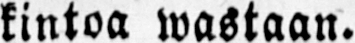kintoa wastaan.
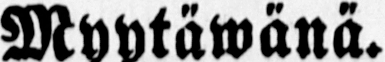Myytäwanä.
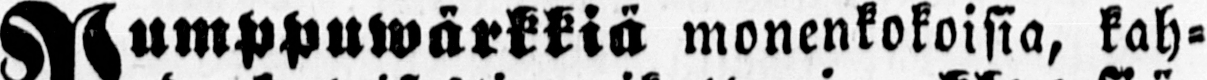Pumpppuwärkkiä monenkokoisia, kah-
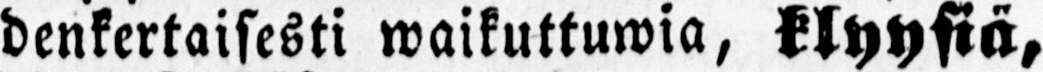denkertaisesti waikuttuwia, klyysi ä ,
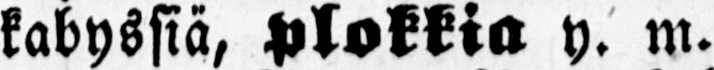kabyssiä, plokkia y. m.
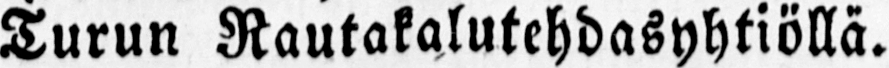Turun Rautakalutehdasyhtiöllä.
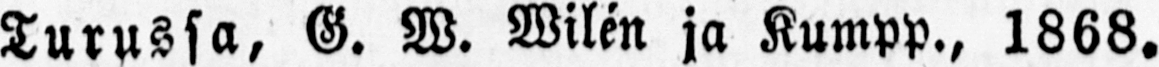Turussa, G. W. Wilén ja Kumpp., 1868.
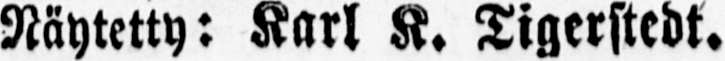Näytetty: Karl K. Tigerstedt.
